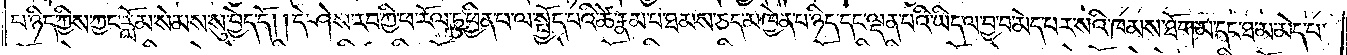པ་ཉིད་ཀྱིས་ཀྱང་རློམ་སེམས་སུ་བྱེད་དོ། །དེ་ཤེས་རབ་ཀྱི་ཕ་རོལ་ཏུ་ཕྱིན་པ་ལ་སྤྱོད་པའི་ཚེ་རྣམ་པ་ཐམས་ཅད་མཁྱེན་པ་ཉིད་དང་ལྡན་པའི་ཡིད་ལ་བྱ་བ་མེད་པར་སའི་ཁམས་ཐོག་མ་དང་ཐ་མ་མེད་པ་
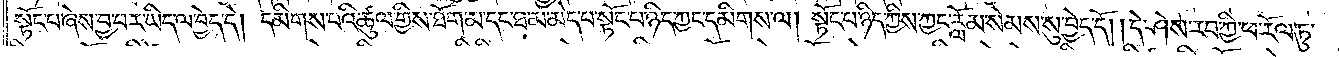སྟོང་པ་ཞེས་བྱ་བར་ཡིད་ལ་བྱེད་དེ། དམིགས་པའི་ཚུལ་གྱིས་ཐོག་མ་དང་ཐ་མ་མེད་པ་སྟོང་པ་ཉིད་ཀྱང་དམིགས་ལ། སྟོང་པ་ཉིད་ཀྱིས་ཀྱང་རློམ་སེམས་སུ་བྱེད་དོ། །དེ་ཤེས་རབ་ཀྱི་ཕ་རོལ་ཏུ་
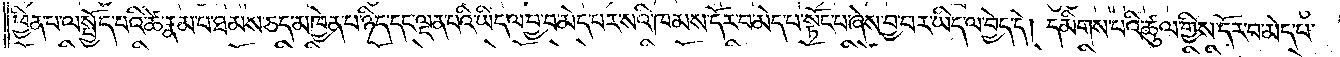ཕྱིན་པ་ལ་སྤྱོད་པའི་ཚེ་རྣམ་པ་ཐམས་ཅད་མཁྱེན་པ་ཉིད་དང་ལྡན་པའི་ཡིད་ལ་བྱ་བ་མེད་པར་སའི་ཁམས་དོར་བ་མེད་པ་སྟོང་པ་ཞེས་བྱ་བར་ཡིད་ལ་བྱེད་དེ། དམིགས་པའི་ཚུལ་གྱིས་དོར་བ་མེད་པ་
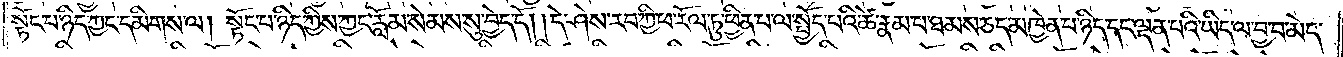སྟོང་པ་ཉིད་ཀྱང་དམིགས་ལ། སྟོང་པ་ཉིད་ཀྱིས་ཀྱང་རློམ་སེམས་སུ་བྱེད་དོ། །དེ་ཤེས་རབ་ཀྱི་ཕ་རོལ་ཏུ་ཕྱིན་པ་ལ་སྤྱོད་པའི་ཚེ་རྣམ་པ་ཐམས་ཅད་མཁྱེན་པ་ཉིད་དང་ལྡན་པའི་ཡིད་ལ་བྱ་བ་མེད་
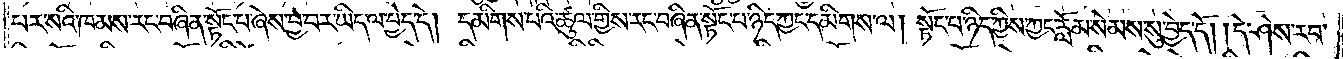པར་སའི་ཁམས་རང་བཞིན་སྟོང་པ་ཞེས་བྱ་བར་ཡིད་ལ་བྱེད་དེ། དམིགས་པའི་ཚུལ་གྱིས་རང་བཞིན་སྟོང་པ་ཉིད་ཀྱང་དམིགས་ལ། སྟོང་པ་ཉིད་ཀྱིས་ཀྱང་རློམ་སེམས་སུ་བྱེད་དོ། །དེ་ཤེས་རབ་
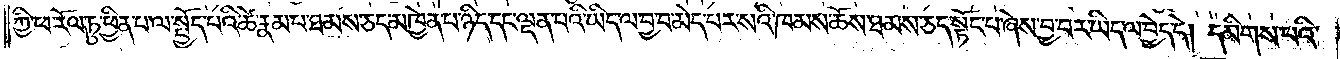ཀྱི་ཕ་རོལ་ཏུ་ཕྱིན་པ་ལ་སྤྱོད་པའི་ཚེ་རྣམ་པ་ཐམས་ཅད་མཁྱེན་པ་ཉིད་དང་ལྡན་པའི་ཡིད་ལ་བྱ་བ་མེད་པར་སའི་ཁམས་ཆོས་ཐམས་ཅད་སྟོང་པ་ཞེས་བྱ་བར་ཡིད་ལ་བྱེད་དེ། དམིགས་པའི་
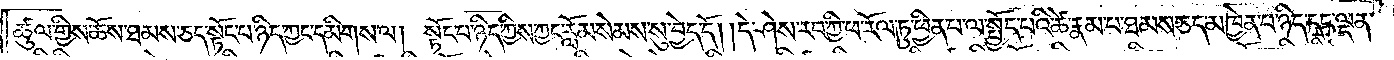ཚུལ་གྱིས་ཆོས་ཐམས་ཅད་སྟོང་པ་ཉིད་ཀྱང་དམིགས་ལ། སྟོང་པ་ཉིད་ཀྱིས་ཀྱང་རློམ་སེམས་སུ་བྱེད་དོ། །དེ་ཤེས་རབ་ཀྱི་ཕ་རོལ་ཏུ་ཕྱིན་པ་ལ་སྤྱོད་པའི་ཚེ་རྣམ་པ་ཐམས་ཅད་མཁྱེན་པ་ཉིད་དང་ལྡན་
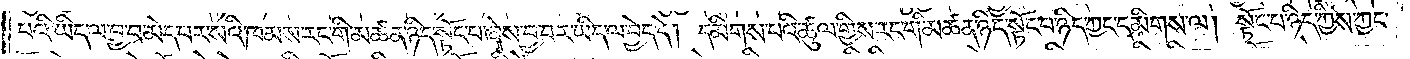པའི་ཡིད་ལ་བྱ་བ་མེད་པར་སའི་ཁམས་རང་གི་མཚན་ཉིད་སྟོང་པ་ཞེས་བྱ་བར་ཡིད་ལ་བྱེད་དེ། དམིགས་པའི་ཚུལ་གྱིས་རང་གི་མཚན་ཉིད་སྟོང་པ་ཉིད་ཀྱང་དམིགས་ལ། སྟོང་པ་ཉིད་ཀྱིས་ཀྱང་
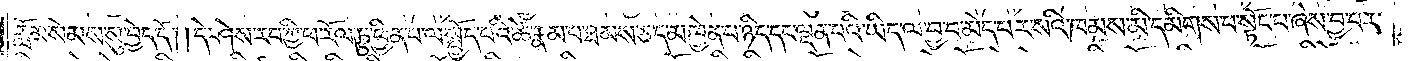རློམ་སེམས་སུ་བྱེད་དོ། །དེ་ཤེས་རབ་ཀྱི་ཕ་རོལ་ཏུ་ཕྱིན་པ་ལ་སྤྱོད་པའི་ཚེ་རྣམ་པ་ཐམས་ཅད་མཁྱེན་པ་ཉིད་དང་ལྡན་པའི་ཡིད་ལ་བྱ་བ་མེད་པར་སའི་ཁམས་མི་དམིགས་པ་སྟོང་པ་ཞེས་བྱ་བར་
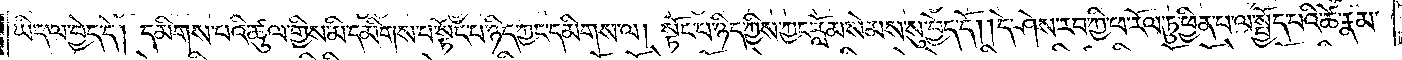ཡིད་ལ་བྱེད་དེ། དམིགས་པའི་ཚུལ་གྱིས་མི་དམིགས་པ་སྟོང་པ་ཉིད་ཀྱང་དམིགས་ལ། སྟོང་པ་ཉིད་ཀྱིས་ཀྱང་རློམ་སེམས་སུ་བྱེད་དོ། །དེ་ཤེས་རབ་ཀྱི་ཕ་རོལ་ཏུ་ཕྱིན་པ་ལ་སྤྱོད་པའི་ཚེ་རྣམ་
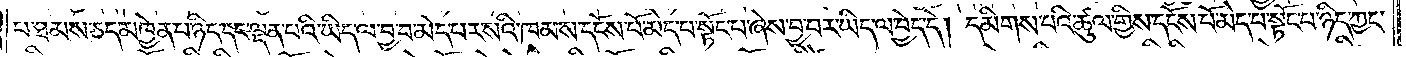པ་ཐམས་ཅད་མཁྱེན་པ་ཉིད་དང་ལྡན་པའི་ཡིད་ལ་བྱ་བ་མེད་པར་སའི་ཁམས་དངོས་པོ་མེད་པ་སྟོང་པ་ཞེས་བྱ་བར་ཡིད་ལ་བྱེད་དེ། དམིགས་པའི་ཚུལ་གྱིས་དངོས་པོ་མེད་པ་སྟོང་པ་ཉིད་ཀྱང་
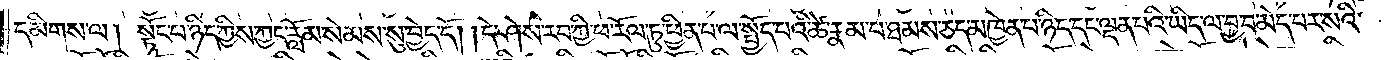དམིགས་ལ། སྟོང་པ་ཉིད་ཀྱིས་ཀྱང་རློམ་སེམས་སུ་བྱེད་དོ། །དེ་ཤེས་རབ་ཀྱི་ཕ་རོལ་ཏུ་ཕྱིན་པ་ལ་སྤྱོད་པའི་ཚེ་རྣམ་པ་ཐམས་ཅད་མཁྱེན་པ་ཉིད་དང་ལྡན་པའི་ཡིད་ལ་བྱ་བ་མེད་པར་སའི་
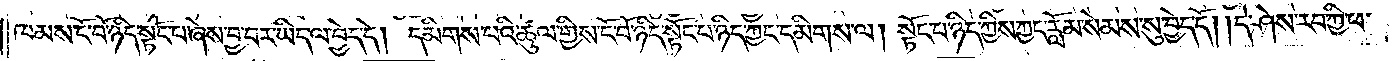ཁམས་ངོ་བོ་ཉིད་སྟོང་པ་ཞེས་བྱ་བར་ཡིད་ལ་བྱེད་དེ། དམིགས་པའི་ཚུལ་གྱིས་ངོ་བོ་ཉིད་སྟོང་པ་ཉིད་ཀྱང་དམིགས་ལ། སྟོང་པ་ཉིད་ཀྱིས་ཀྱང་རློམ་སེམས་སུ་བྱེད་དོ། །དེ་ཤེས་རབ་ཀྱི་ཕ་
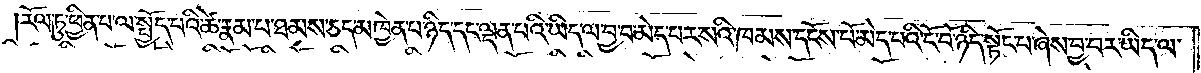རོལ་ཏུ་ཕྱིན་པ་ལ་སྤྱོད་པའི་ཚེ་རྣམ་པ་ཐམས་ཅད་མཁྱེན་པ་ཉིད་དང་ལྡན་པའི་ཡིད་ལ་བྱ་བ་མེད་པར་སའི་ཁམས་དངོས་པོ་མེད་པའི་ངོ་བོ་ཉིད་སྟོང་པ་ཞེས་བྱ་བར་ཡིད་ལ་
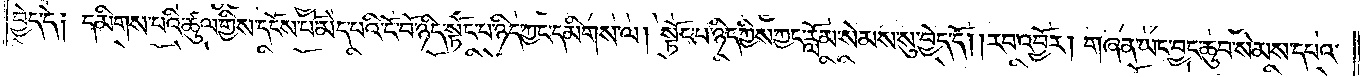བྱེད་དེ༑ དམིགས་པའི་ཚུལ་གྱིས་དངོས་པོ་མེད་པའི་ངོ་བོ་ཉིད་སྟོང་པ་ཉིད་ཀྱང་དམིགས་ལ། སྟོང་པ་ཉིད་ཀྱིས་ཀྱང་རློམ་སེམས་སུ་བྱེད་དོ། །རབ་འབྱོར། གཞན་ཡང་བྱང་ཆུབ་སེམས་དཔའ་
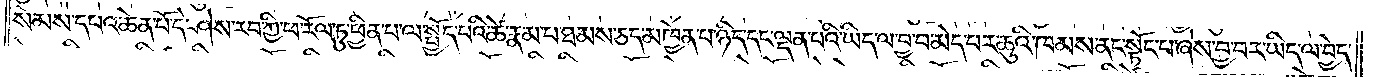སེམས་དཔའ་ཆེན་པོ་དེ་ཤེས་རབ་ཀྱི་ཕ་རོལ་ཏུ་ཕྱིན་པ་ལ་སྤྱོད་པའི་ཚེ་རྣམ་པ་ཐམས་ཅད་མཁྱེན་པ་ཉིད་དང་ལྡན་པའི་ཡིད་ལ་བྱ་བ་མེད་པར་ཆུའི་ཁམས་ནང་སྟོང་པ་ཞེས་བྱ་བར་ཡིད་ལ་བྱེད་
